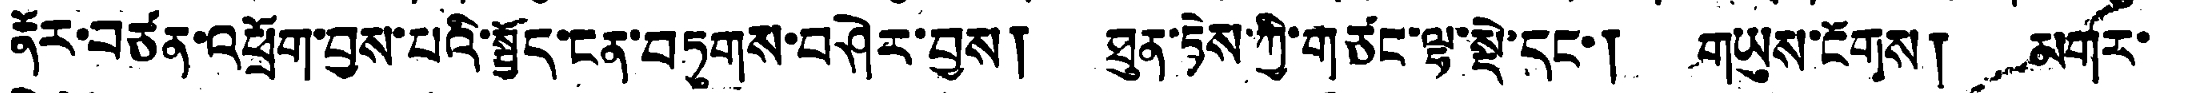ནོར་བཙན་འཕྲོག་བྱས་པའི་སྤྱོད་ངན་བཏུགས་བཤེར་བྱས། ཐུན་ཏེས་ཀྱི་གཙང་ལྷ་སྡེ་དང་། གཡུས་ངོགས། མགར་
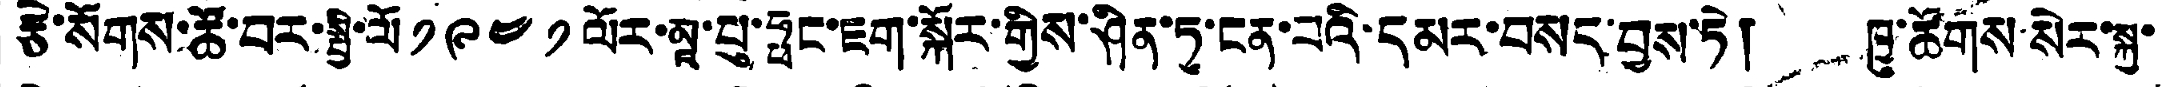རྩེ་སོགས་ཚོ་བར་སྤྱི་ལོ ༡༩༤༡ ལོར་མཱ་པུ་ཧྥང་ཇག་སྐོར་གྱིས་ཤིན་ཏུ་ངན་པའི་དམར་བསད་བྱས་ཏེ། ཁྱུ་ཚོགས་སེར་སྐྱ་
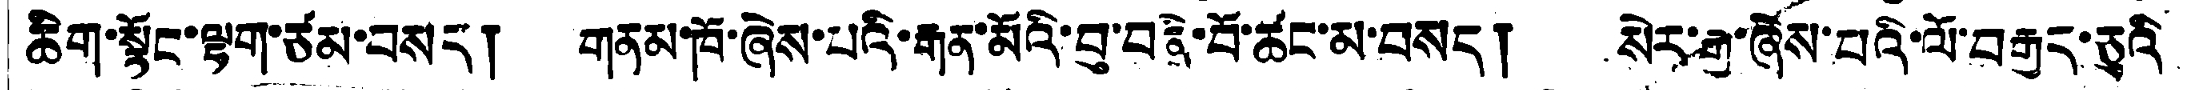ཆིག་སྟོང་ལྷག་ཙམ་བསད། གནམ་ཁོ་ཞེས་པའི་རྒན་མོའི་བུ་བཞི་བོ་ཚང་མ་བསད། སེར་རྒྱ་ཞེས་པའི་ལོ་བརྒྱད་ཅུའི
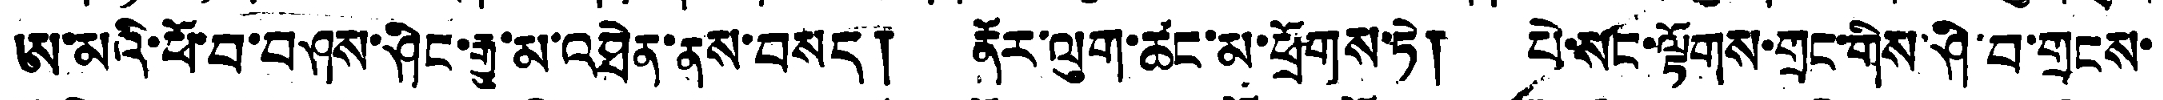ཨ་མའི་ཕོ་བ་བཤས་ཤིང་རྒྱུ་མ་འཐེན་ནས་བསད། ནོར་ལུག་ཚང་མ་ཕྲོགས་ཏེ། པེ་སང་ལྟོགས་གྲང་གིས་ཤི་བ་གྲངས་
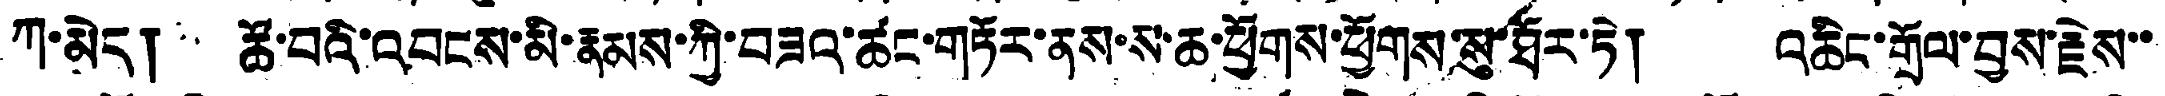ཀ་མེད། ཚོ་བའི་འབངས་མི་རྣམས་ཀྱི་བཟའ་ཚང་གཏོར་ནས་ས་ཆ་ཕྱོགས་ཕྱོགས་སུ་ཐོར་ཏེ། འཆིང་གྲོལ་བྱས་རྗེས་་
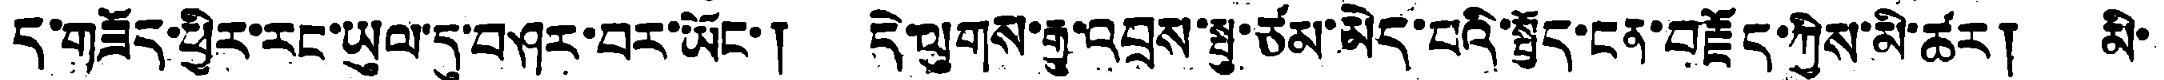ད་གཟོད་ཕྱིར་རང་ཡུལ་དུ་བཤར་བར་ཡོང་། དེ་ལུགས་རྒྱུ་འབྲས་སྤུ་ཙམ་མེད་པའི་སྤྱོད་ངན་བརྗོད་ཀྱིས་མི་ཚར། མི་
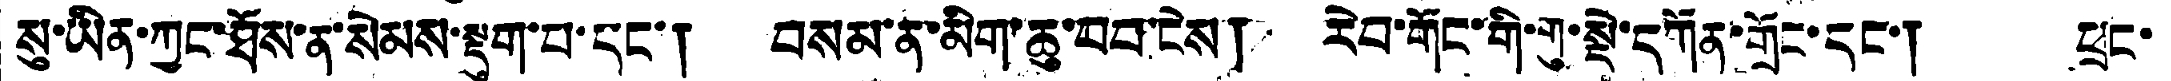སུ་ཡིན་ཀྱང་ཐོས་ན་སེམས་སྡུག་པ་དང་། བསམ་ན་མིག་ཆུ་བབ་ངེས། རེབ་གོང་གི་གུ་སྡེ་དགོན་གྲོང་དང་། ཕྲང་
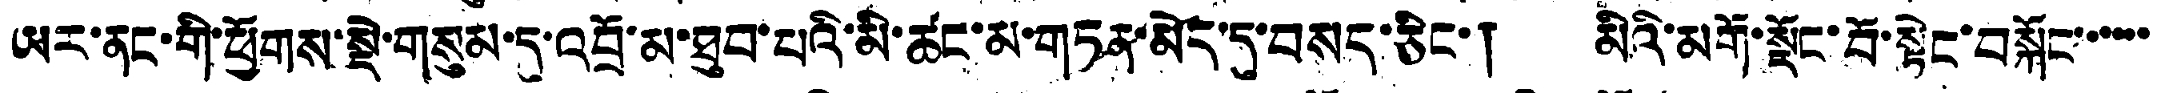ཡར་ནང་གི་ཕྱོགས་སྡེ་གསུམ་དུ་འབྲོ་མ་ཐུབ་པའི་མི་ཚང་མ་གཏན་མེད་དུ་བསད་ཅིང་། མིའི་མགོ་སྡོང་བོ་སྟེང་བསྐོང་་་་་་
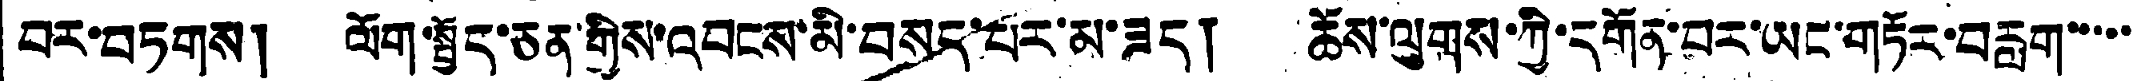བར་བཏགས། ལོག་སྤྱོད་ཅན་གྱིས་འབངས་མི་བསད་པར་མ་ཟད། ཆོས་ལུགས་ཀྱི་དགོན་བར་ཡང་གཏོར་བརླག་་་་་་་
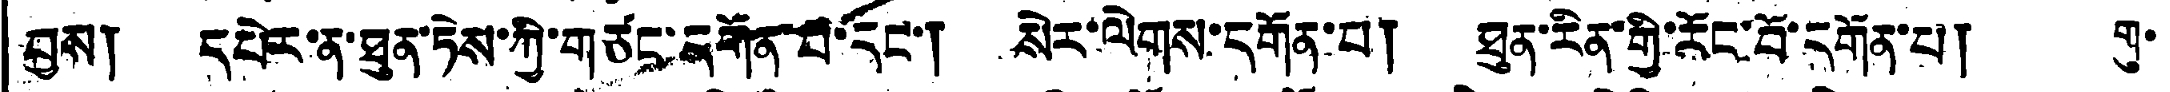བྱས། དཔེར་ན་ཐུན་ཏེས་ཀྱི་གཙང་དགོན་པ་དང་། སེར་ལེགས་དགོན་པ། ཐུན་རིན་གྱི་རོང་བོ་དགོན་པ། གུ་
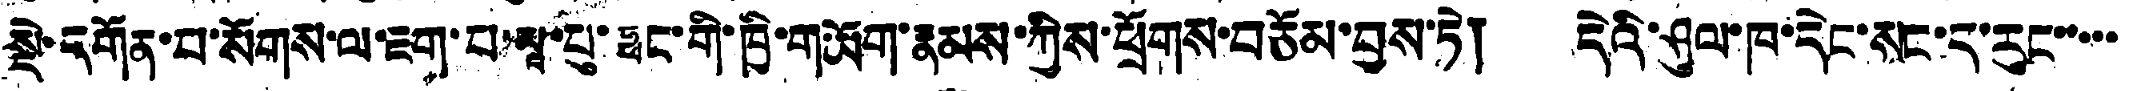སྡེ་དགོན་པ་སོགས་ལ་ཇག་པ་མཱ་པུ་ཧྥང་གི་ཁྱི་གཡོག་རྣམས་ཀྱིས་ཕྲོགས་བཅོམ་བྱས་ཏེ། དེའི་ཤུལ་ཁ་དེང་སང་ད་རུང་་་་་་་
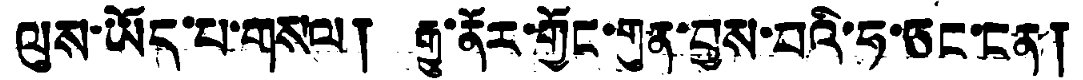ལུས་ཡོད་པ་གསལ། རྒྱུ་ནོར་གྱོང་གུན་བྱས་པའི་ཧ་ཅང་ངན།
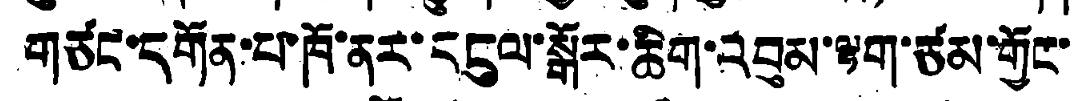གཙང་དགོན་པ་ཁོ་ནར་དངུལ་སྒོར་ཆིག་འབུམ་ལྷག་ཙམ་གྱོང་
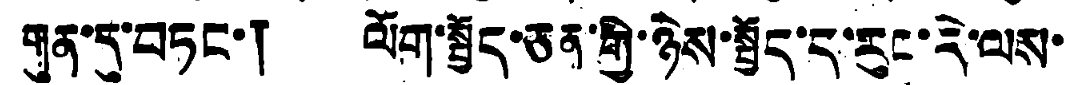གུན་དུ་བཏང་། ལོག་སྤྱོད་ཅན་གྱི་ཉེས་སྤྱོད་ད་རུང་དེ་ལས་
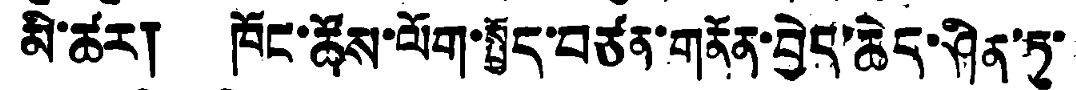མི་ཚར། ཁོང་ཚོས་ལོག་སྤྱོད་བཙན་གནོན་བྱེད་ཆེད་ཤིན་ཏུ་
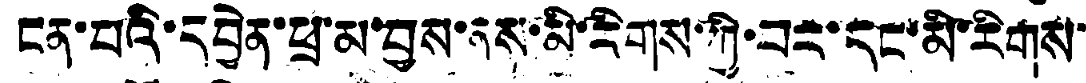ངན་པའི་དབྱེན་ཕྲ་མ་བྱས་ནས་མི་རིགས་ཀྱི་བར་དང་མི་རིགས་
